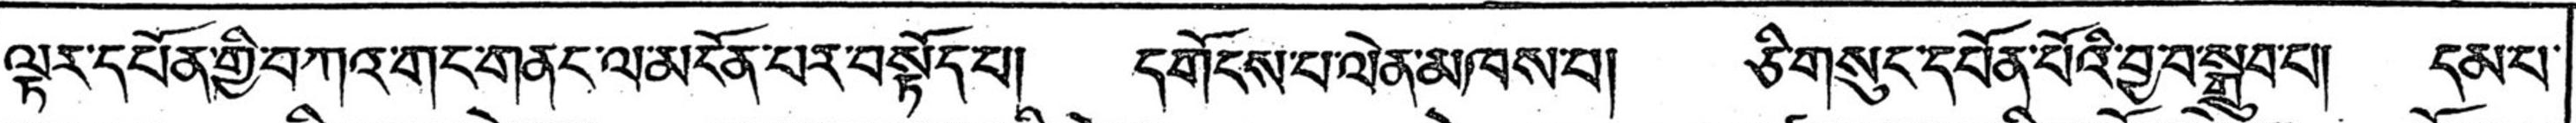ལྟར་དཔོན་གྱི་བཀའ་གང་གནང་ལ་མངོན་པར་བསྟོད་པ། དགོངས་པ་ལེན་མཁས་པ། ཅིག་སུང་དཔོན་པོའི་བྱབ་སྒྲུབ་པ། དམ་པ་
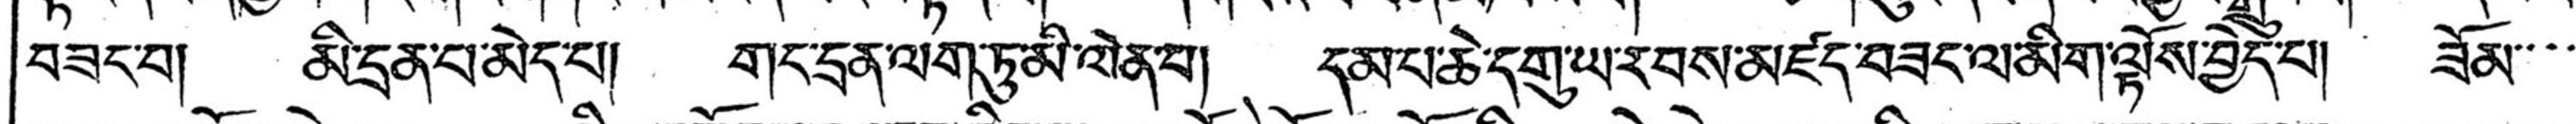བཟང་བ། མི་དྲན་པ་མེད་པ། གང་དྲན་ལག་ཏུ་མི་ལེན་པ། དམ་པ་ཆེ་དགུ་ཝ་རབས་མཛད་བཟང་ལ་མིག་ལྟོས་བྱེད་པ། ཟོམ་་་་
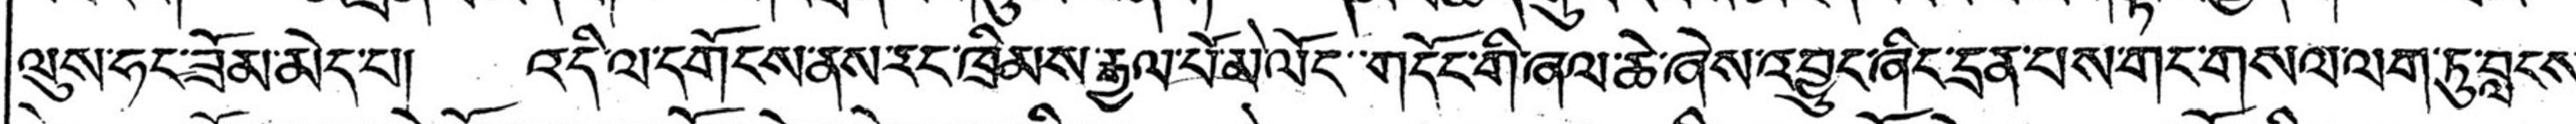ལུས་ཧང་ཟོམ་མེད་པ། འདི་ལ་དགོངས་ནས་རང་ཁྲིམས་རྒྱལ་པོ་མེ་ལོང་་གདོང་གི་ཞལ་ཆེ་ཞེས་འབྱུང་ཞིང་དྲན་པས་གང་གསལ་ལག་ཏུ་བླངས་
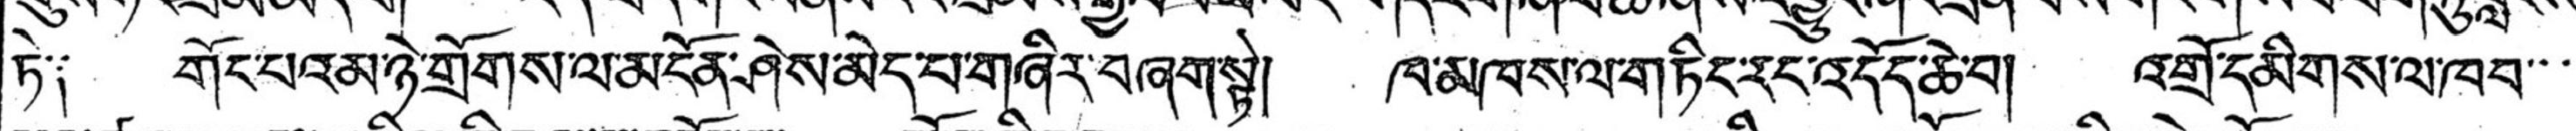ཏེ༑ གོང་པའམ་ཉེ་གྲོགས་ལ་མངོན་ཤེས་མེད་པ་གཞིར་བཞག་སྟེ། ཁ་མཁས་ལ་གཏིང་རང་འདོད་ཆེ་བ། འགྲོ་དམིགས་ལ་ཁབ་་་་
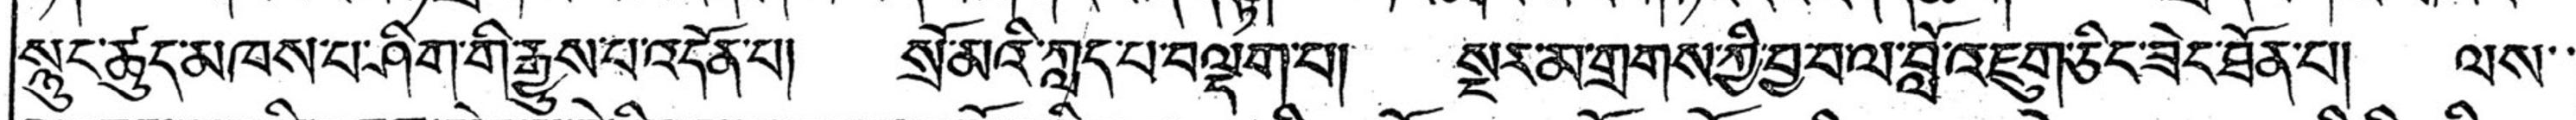སྙུང་ཚུད་མཁས་པ་ཤིག་གི་རྒྱུས་པ་འདོན་པ། སྲོ་མའི་སླད་པ་བལྡག་པ། སྔར་མ་གྲགས་ཀྱི་བྱ་བ་ལ་བློ་འཇུག་ཅིང་ཟེང་ཐོན་པ། ལས་་
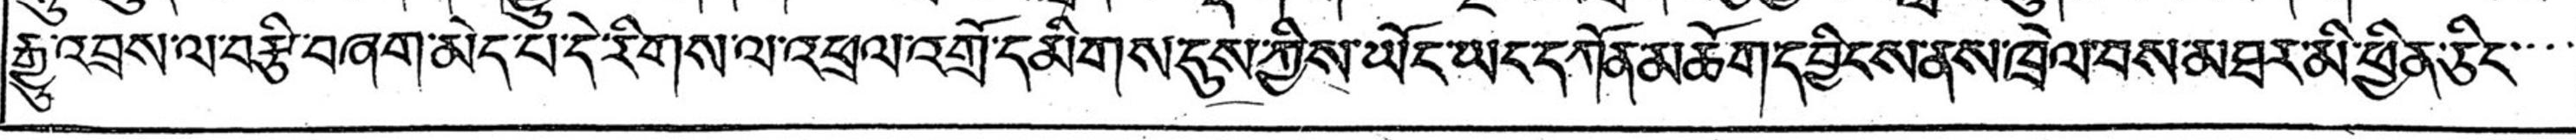རྒྱུ་འབྲས་ལ་བརྩི་བཞག་མེད་པོ་དེ་རིགས་ལ་འཕྲལ་འགྲོ་དམིགས་དུས་ཀྱིས་ཡོང་ཡང་དཀོན་མཆོག་དབྱིངས་ནས་ཁྲེལ་བས་མཐར་མི་ཕྱིན་ཅིང་་་་
